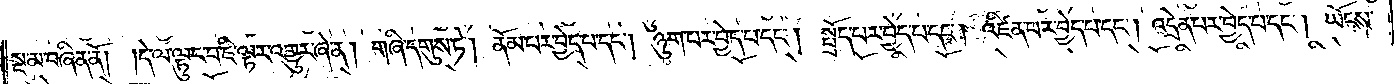སྔ་མ་བཞིན་ནོ། །དེ་ལ་ལྟུང་བ་ཇི་ལྟར་འགྱུར་ཞེ་ན། གཞི་དགུས་ཏེ། ནོམ་པར་བྱེད་པ་དང༌། ཉུག་པར་བྱེད་པ་དང༌། སྤྲོད་པར་བྱེད་པ་དང༌། འཛིན་པར་བྱེད་པ་དང༌། འདྲེན་པར་བྱེད་པ་དང༌། ཡོངས་
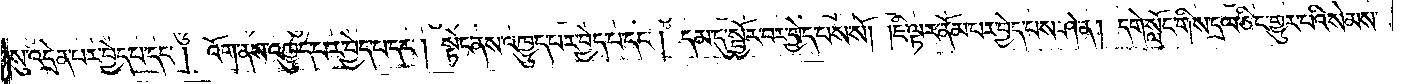སུ་འདྲེན་པར་བྱེད་པ་དང༌། འོག་ནས་འཁྱུད་པར་བྱེད་པ་དང༌། སྟེང་ནས་འཁྱུད་པར་བྱེད་པ་དང༌། དམ་དུ་སྦྱོར་བར་བྱེད་པས་སོ། །ཇི་ལྟར་ནོམ་པར་བྱེད་པས་ཤེ་ན། དགེ་སློང་གིས་དྲལ་ཅིང་གྱུར་པའི་སེམས་
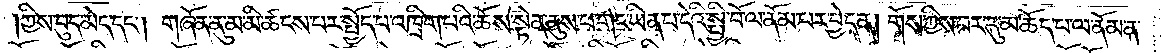ཀྱིས་བུད་མེད་དང༌། གཞོན་ནུ་མ་མི་ཚངས་པར་སྤྱོད་པ་འཁྲིག་པའི་ཆོས་སྟོན་ནུས་པ་གང་ཡིན་པ་དེའི་སྤྱི་བོ་ལ་ནོམ་པར་བྱེད་ན། གོས་ཀྱིས་བར་དུ་མ་ཆོད་པ་ལ་ནོམ་ན་
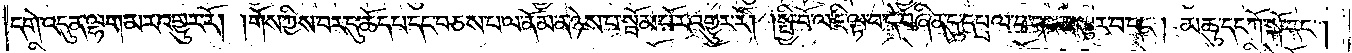དགེ་འདུན་ལྷག་མར་འགྱུར་རོ། །གོས་ཀྱིས་བར་དུ་ཆོད་པ་དང་བཅས་པ་ལ་ནོམ་ན་ཉེས་པ་སྦོམ་པོར་འགྱུར་རོ། །སྤྱི་བོ་ལ་ཇི་ལྟ་བ་དེ་བཞིན་དུ་དཔྲལ་བ་དང་མཁུར་བ་དང༌། མཆུ་དང་ཀོ་སྐོ་དང༌།
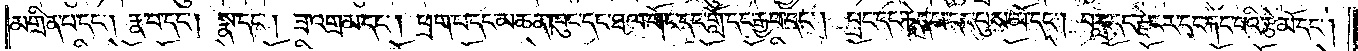མགྲིན་པ་དང༌། རྣ་བ་དང༌། སྣ་དང༌། ཟ་འགྲམ་དང༌། ཕྲག་པ་དང་མཆན་ཁུང་དང་ཐལ་གོང་དང་གློ་དང་རྒྱབ་དང༌། བྲང་དང་རྐེད་པ་དང་པུས་མོ་དང༌། བརླ་དང་རྗེ་ངར་དང་རྐང་པའི་རྩེ་མོ་དང༌།
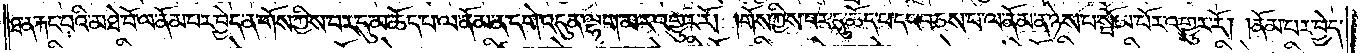ཐ་ན་རྐང་པའི་མཐེ་བོ་ལ་ནོམ་པར་བྱེད་ན་གོས་ཀྱིས་བར་དུ་མ་ཆོད་པ་ལ་ནོམ་ན་དགེ་འདུན་ལྷག་མར་འགྱུར་རོ། །གོས་ཀྱིས་བར་དུ་ཆོད་པ་དང་བཅས་པ་ལ་ནོམ་ན་ཉེས་པ་སྦོམ་པོར་འགྱུར་རོ། །ནོམ་པར་བྱེད་
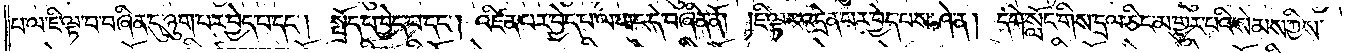པ་ལ་ཇི་ལྟ་བ་བཞིན་དུ་ཉུག་པར་བྱེད་པ་དང༌། སྤྲོད་པ་བྱེད་པ་དང༌། འཛིན་པར་བྱེད་པ་ལ་ཡང་དེ་བཞིན་ནོ། །ཇི་ལྟར་འདྲེན་པར་བྱེད་པས་ཤེ་ན། དགེ་སློང་གིས་དྲལ་ཅིང་མ་གྱུར་པའི་སེམས་ཀྱིས་
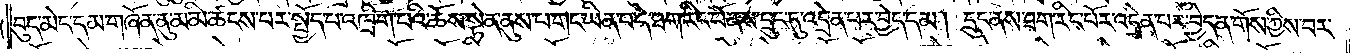བུད་མེད་དམ་གཞོན་ནུ་མ་མི་ཚངས་པར་སྤྱོད་པ་འཁྲིག་པའི་ཆོས་སྟོན་ནུས་པ་གང་ཡིན་པ་དེ་ཐག་རིང་པོ་ནས་དྲུང་དུ་འདྲེན་པར་བྱེད་དམ། དྲུང་ནས་ཐག་རིང་པོར་འདྲེན་པར་བྱེད་ན་གོས་ཀྱིས་བར་
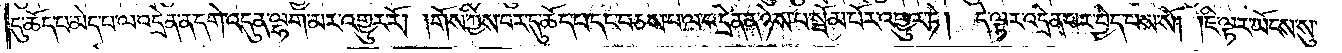དུ་ཆོད་པ་མེད་པ་ལ་འདྲེན་ན་དགེ་འདུན་ལྷག་མར་འགྱུར་རོ། །གོས་ཀྱིས་བར་དུ་ཆོད་པ་དང་བཅས་པ་ལ་འདྲེན་ན་ཉེས་པ་སྦོམ་པོར་འགྱུར་ཏེ། དེ་ལྟར་འདྲེན་པར་བྱེད་པས་སོ། །ཇི་ལྟར་ཡོངས་སུ་
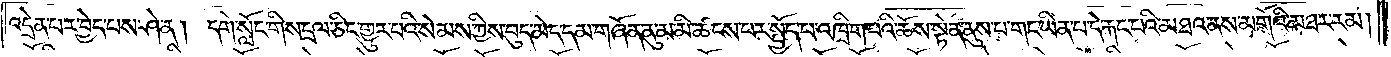འདྲེན་པར་བྱེད་པས་ཤེ་ན། དགེ་སློང་གིས་དྲལ་ཅིང་གྱུར་པའི་སེམས་ཀྱིས་བུད་མེད་དམ་གཞོན་ནུ་མ་མི་ཚངས་པར་སྤྱོད་པ་འཁྲིག་པའི་ཆོས་སྟོན་ནུས་པ་གང་ཡིན་པ་དེ་རྐང་པའི་མཐའ་ནས་མགོའི་མཐར་རམ།
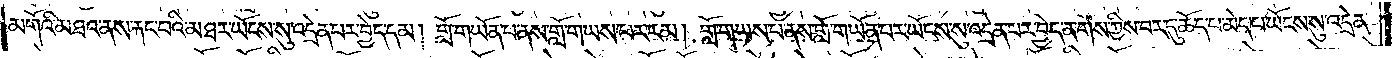མགོའི་མཐའ་ནས་རྐང་པའི་མཐར་ཡོངས་སུ་འདྲེན་པར་བྱེད་དམ། གློ་གཡོན་པ་ནས་གློ་གཡས་པར་རམ། གློ་གཡས་པ་ནས་གློ་གཡོན་པར་ཡོངས་སུ་འདྲེན་པར་བྱེད་ན་གོས་ཀྱིས་བར་དུ་ཆོད་པ་མེད་པ་ཡོངས་སུ་འདྲེན་
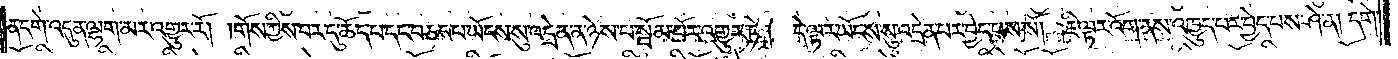ན་དགེ་འདུན་ལྷག་མར་འགྱུར་རོ། །གོས་ཀྱིས་བར་དུ་ཆོད་པ་དང་བཅས་པ་ཡོངས་སུ་འདྲེན་ན་ཉེས་པ་སྦོམ་པོར་འགྱུར་ཏེ། དེ་ལྟར་ཡོངས་སུ་འདྲེན་པར་བྱེད་པས་སོ། །ཇི་ལྟར་འོག་ནས་འཁྱུད་པར་བྱེད་པས་ཤེ་ན། དགེ་
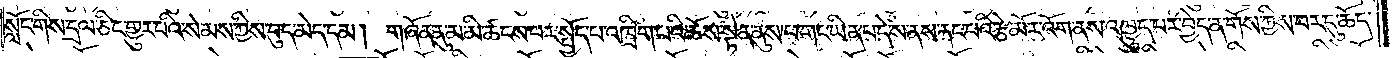སློང་གིས་དྲལ་ཅིང་གྱུར་པའི་སེམས་ཀྱིས་བུད་མེད་དམ། གཞོན་ནུ་མ་མི་ཚངས་པར་སྤྱོད་པ་འཁྲིག་པའི་ཆོས་སྟོན་ནུས་པ་གང་ཡིན་པ་དེ་ས་ནས་རྐང་པའི་རྩེ་མོར་འོག་ནས་འཁྱུད་པར་བྱེད་ན་གོས་ཀྱིས་བར་དུ་ཆོད་
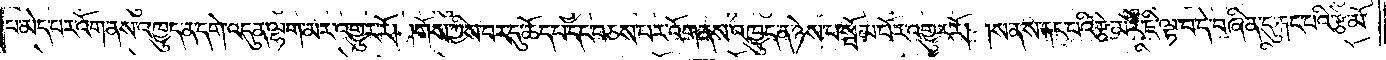པ་མེད་པར་འོག་ནས་འཁྱུད་ན་དགེ་འདུན་ལྷག་མར་འགྱུར་རོ། །གོས་ཀྱིས་བར་དུ་ཆོད་པ་དང་བཅས་པར་འོག་ནས་འཁྱུད་ན་ཉེས་པ་སྦོམ་པོར་འགྱུར་རོ། །ས་ནས་རྐང་པའི་རྩེ་མོར་ཇི་ལྟ་བ་དེ་བཞིན་དུ་རྐང་པའི་རྩེ་མོ་
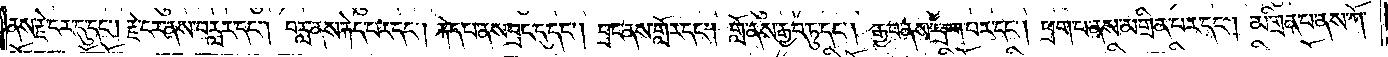ནས་རྗེ་ངར་དུ་དང༌། རྗེ་ངར་ནས་བརླར་དང༌། བརླ་ནས་རྐེད་བར་དང༌། རྐེད་པ་ནས་བྲང་དུ་དང༌། བྲང་ནས་གློར་དང༌། གློ་ནས་རྒྱབ་ཏུ་དང༌། རྒྱབ་ནས་ཕྲག་པར་དང༌། ཕྲག་པ་ནས་མགྲིན་པར་དང༌། མགྲིན་པ་ནས་ཀོ་
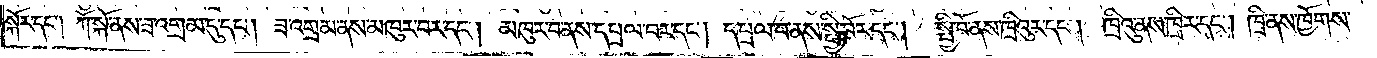སྐོར་དང༌། ཀོ་སྐོ་ནས་ཟ་འགྲམ་དུ་དང༌། ཟ་འགྲམ་ནས་མཁུར་བར་དང༌། མཁུར་བ་ནས་དཔྲལ་བར་དང༌། དཔྲལ་བ་ནས་སྤྱི་བོར་དང༌། སྤྱི་བོ་ནས་ཁྲིའུར་དང༌། ཁྲིའུ་ནས་ཁྲིར་དང༌། ཁྲི་ནས་ཁྱོགས་
